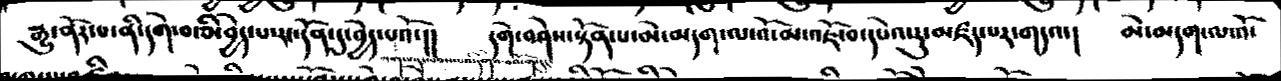རྒྱུ་ནོར་པ་ནི་དགེ་བ་ཅི་བྱེད་པ་རང་དོན་དུ་བྱེད་པའོ་།།      དགེ་བཤེས་སྟོན་པ་མེ་མདག་ལ་འོ་མ་འཇོ་བ་དཔེའ་རུ་མཛད་པར་གདའ་།     མེ་མདག་ལ་འོ་
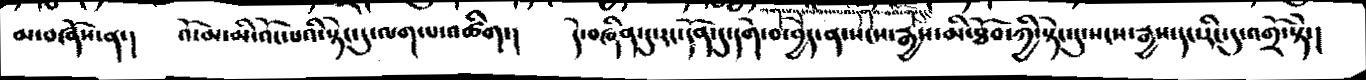མ་བཞོས་ན་།    འོ་མ་མི་འོང་པའི་སྟེང་དུ་ལག་པ་འཚིག་།   དེ་བཞིན་དུ་རང་དོན་དུ་དགེ་བ་བྱེད་ན་སངས་རྒྱས་མི་ཐོབ་ཀྱི་སྟེང་དུ་སངས་རྒྱས་དང་རིང་དུ་འགྲོ་སྟེ་།
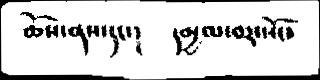ཆོས་ནས་དང་།     དམྱལ་བར་སོང་
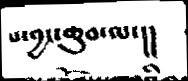པ་བྱང་ཆུབ་ལ་།།
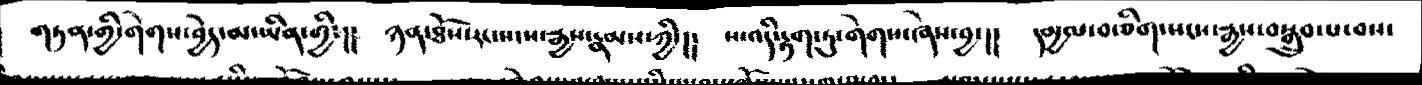གཏན་གྱི་གེགས་བྱེད་མ་ཡིན་གྱི་།།  ཉན་ཐོས་རང་སངས་རྒྱས་རྣམས་ཀྱི་།།  ས་འདི་རྟག་ཏུ་གེགས་ཞེས་བྱ་།།  དམྱལ་བ་ཅིག་སངས་རྒྱས་བསྒྲུབ་པ་བས་
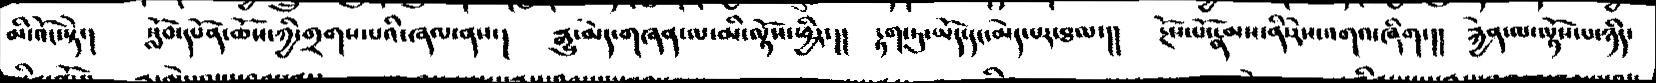མི་འོང་སྟེ་།  སློབ་དཔོན་ཆོས་ཀྱི་གྲགས་པའི་ཞལ་ནས་།  རྒྱུ་མེད་གཞན་ལ་མི་ལྟོས་ཕྱིར་།།  རྟག་ཏུ་ཡོད་དངམེད་པར་ཐལ་།།  རྔོས་པོ་རྣམས་ནི་རེས་འགའ་ཞིག་།།  རྐྱེན་ལ་མ་ལྟོས་པ་ཉིད་
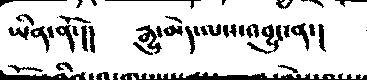ཡིན་ནོ་།།  རྒྱུ་མེད་ལས་འབྱུང་ན་།
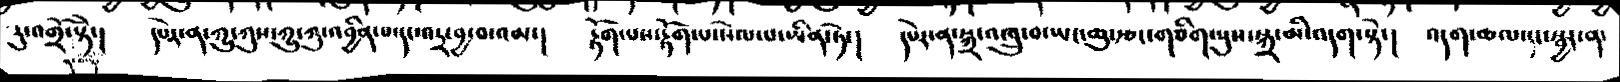རུ་འགྲོ་སྟེ་།  དཔེར་ན་ཀྱུ་ཀུས་ཀྱུ་ཀུ་འབྱིན་པ་དང་འདྲ་བྱ་བ་འམ་།  རྟོག་པས་རྟོག་པ་སེལ་པ་ཡིན་ཏེ་།  དཔེར་ན་སྐྲ་འཁྲུ་བ་ཡང་ཆུ་རྩ་གཅིག་པུས་སྐྲ་མི་བདག་སྟེ་། འདག་ཆལ་དང་སྦྱར་ན་
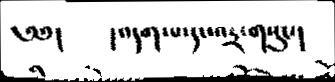༄༅།  །འདག་པ་དང་འདྲ་གསུང་།
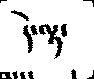དེ་ལྟ་
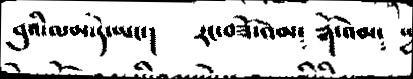བུའི་ལམ་དེ་ཡང་།    རང་བཟོ་འམ༴  རྒོ་འམ༴  སདྱས
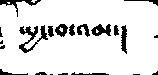ཡྱང་བ་འམ་།
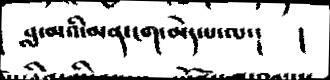བླ་མའི་མན་ངག་མེད་པ་ལ་།     །
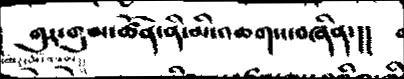གུར་གུམ་ཚོན་ནི་མི་འཆགས་བཞིན་།།
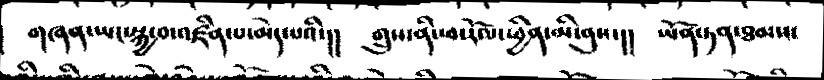གཞན་ཡང་སྐྱ་བ་འཛིན་པ་མེད་པའི་།།  གྲུས་ནི་ཕ་རོལ་ཕྱིན་མི་ནུས་།།  ཡོན་ཏན་ཐམས་
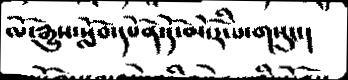ལོ་རྒྱུས་སློབ་དཔོན་དོ་མོ་རི་པ་གསུང་།
